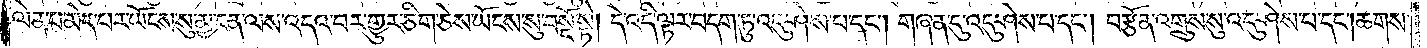ལེན་པ་མེད་པར་ཡོངས་སུ་མྱ་ངན་ལས་འདའ་བར་གྱུར་ཅིག་ཅེས་ཡོངས་སུ་བསྔོ་སྟེ། དེ་འདི་ལྟར་བདག་ཏུ་འདུ་ཤེས་པ་དང༌། གཞན་དུ་འདུ་ཤེས་པ་དང༌། བརྩོན་འགྲུས་སུ་འདུ་ཤེས་པ་དང༌། ཆགས་
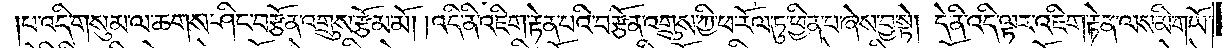པ་འདི་གསུམ་ལ་ཆགས་ཤིང་བརྩོན་འགྲུས་རྩོམ་མོ། །འདི་ནི་འཇིག་རྟེན་པའི་བརྩོན་འགྲུས་ཀྱི་ཕ་རོལ་ཏུ་ཕྱིན་པ་ཞེས་བྱ་སྟེ། དེ་ནི་འདི་ལྟར་འཇིག་རྟེན་ལས་མི་གཡོ་
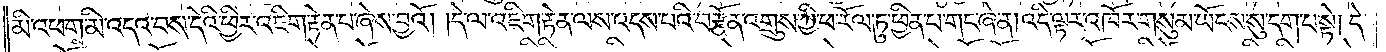མི་འཕག་མི་འདའ་བས་དེའི་ཕྱིར་འཇིག་རྟེན་པ་ཞེས་བྱའོ། །དེ་ལ་འཇིག་རྟེན་ལས་འདས་པའི་བརྩོན་འགྲུས་ཀྱི་ཕ་རོལ་ཏུ་ཕྱིན་པ་གང་ཞེ་ན། འདི་ལྟར་འཁོར་གསུམ་ཡོངས་སུ་དག་པ་སྟེ། དེ་
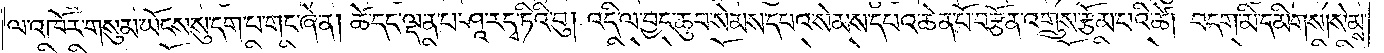ལ་འཁོར་གསུམ་ཡོངས་སུ་དག་པ་གང་ཞེ་ན། ཚེ་དང་ལྡན་པ་ཤཱ་ར་དྭ་ཏིའི་བུ། འདི་ལ་བྱང་ཆུབ་སེམས་དཔའ་སེམས་དཔའ་ཆེན་པོ་བརྩོན་འགྲུས་རྩོམ་པའི་ཚེ། བདག་མི་དམིགས། སེམས་
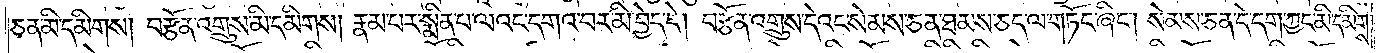ཅན་མི་དམིགས། བརྩོན་འགྲུས་མི་དམིགས། རྣམ་པར་སྨིན་པ་ལའང་དགའ་བར་མི་བྱེད་དེ། བརྩོན་འགྲུས་དེའང་སེམས་ཅན་ཐམས་ཅད་ལ་གཏོང་ཞིང༌། སེམས་ཅན་དེ་དག་ཀྱང་མི་དམིགས་
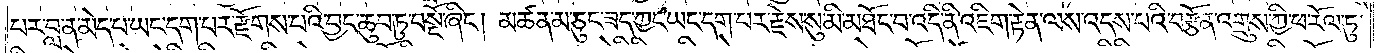པར་བླ་ན་མེད་པ་ཡང་དག་པར་རྫོགས་པའི་བྱང་ཆུབ་ཏུ་བསྔོ་ཞིང༌། མཚན་མ་ཅུང་ཟད་ཀྱང་ཡང་དག་པར་རྗེས་སུ་མི་མཐོང་བ་འདི་ནི་འཇིག་རྟེན་ལས་འདས་པའི་བརྩོན་འགྲུས་ཀྱི་ཕ་རོལ་ཏུ་
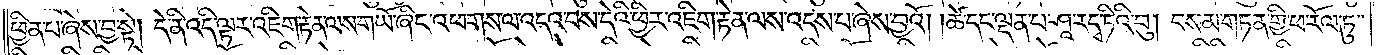ཕྱིན་པ་ཞེས་བྱ་སྟེ། དེ་ནི་འདི་ལྟར་འཇིག་རྟེན་ལས་གཡོ་ཞིང་འཕགས་ལ་འདའ་བས་དེའི་ཕྱིར་འཇིག་རྟེན་ལས་འདས་པ་ཞེས་བྱའོ། །ཚེ་དང་ལྡན་པ་ཤཱ་ར་དྭ་ཏིའི་བུ། བསམ་གཏན་གྱི་ཕ་རོལ་ཏུ་
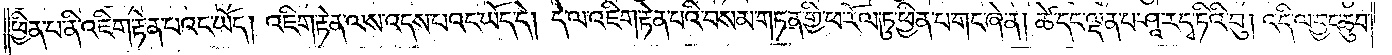ཕྱིན་པ་ནི་འཇིག་རྟེན་པའང་ཡོད། འཇིག་རྟེན་ལས་འདས་པའང་ཡོད་དེ། དེ་ལ་འཇིག་རྟེན་པའི་བསམ་གཏན་གྱི་ཕ་རོལ་ཏུ་ཕྱིན་པ་གང་ཞེ་ན། ཚེ་དང་ལྡན་པ་ཤཱ་ར་དྭ་ཏིའི་བུ། འདི་ལ་བྱང་ཆུབ་
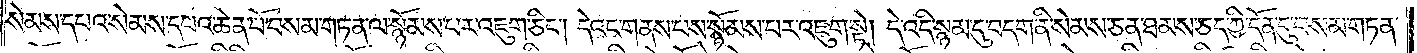སེམས་དཔའ་སེམས་དཔའ་ཆེན་པོ་བསམ་གཏན་ལ་སྙོམས་པར་འཇུག་ཅིང༌། དེའང་གནས་པས་སྙོམས་པར་འཇུག་སྟེ། དེ་འདི་སྙམ་དུ་བདག་ནི་སེམས་ཅན་ཐམས་ཅད་ཀྱི་དོན་དུ་བསམ་གཏན་
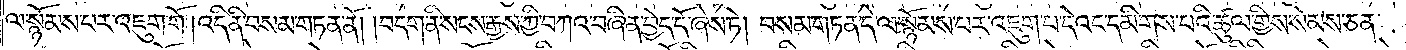ལ་སྙོམས་པར་འཇུག་གོ །འདི་ནི་བསམ་གཏན་ནོ། །བདག་ནི་སངས་རྒྱས་ཀྱི་བཀའ་བཞིན་བྱེད་དོ་ཞེས་ཏེ། བསམ་གཏན་དེ་ལ་སྙོམས་པར་འཇུག་པ་དེའང་དམིགས་པའི་ཚུལ་གྱིས་སེམས་ཅན་
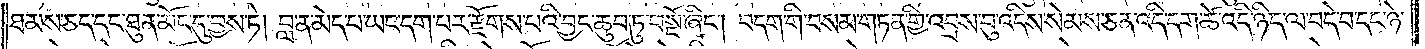ཐམས་ཅད་དང་ཐུན་མོང་དུ་བྱས་ཏེ། བླ་ན་མེད་པ་ཡང་དག་པར་རྫོགས་པའི་བྱང་ཆུབ་ཏུ་བསྔོ་ཞིང༌། བདག་གི་བསམ་གཏན་གྱི་འབྲས་བུ་འདིས་སེམས་ཅན་འདི་དག་ཚེ་འདི་ཉིད་ལ་བདེ་བ་དང་ཉེ་
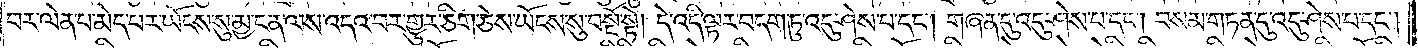བར་ལེན་པ་མེད་པར་ཡོངས་སུ་མྱ་ངན་ལས་འདའ་བར་གྱུར་ཅིག་ཅེས་ཡོངས་སུ་བསྔོ་སྟེ། དེ་འདི་ལྟར་བདག་ཏུ་འདུ་ཤེས་པ་དང༌། གཞན་དུ་འདུ་ཤེས་པ་དང༌། བསམ་གཏན་དུ་འདུ་ཤེས་པ་དང༌།
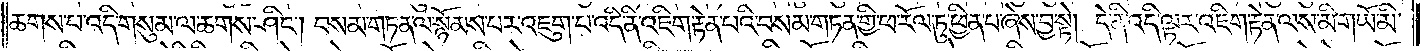ཆགས་པ་འདི་གསུམ་ལ་ཆགས་ཤིང༌། བསམ་གཏན་ལ་སྙོམས་པར་འཇུག་པ་འདི་ནི་འཇིག་རྟེན་པའི་བསམ་གཏན་གྱི་ཕ་རོལ་ཏུ་ཕྱིན་པ་ཞེས་བྱ་སྟེ། དེ་ནི་འདི་ལྟར་འཇིག་རྟེན་ལས་མི་གཡོ་མི་
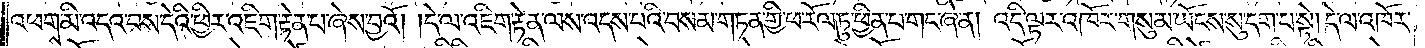འཕགས་མི་འདའ་བས་དེའི་ཕྱིར་འཇིག་རྟེན་པ་ཞེས་བྱའོ། །དེ་ལ་འཇིག་རྟེན་ལས་འདས་པའི་བསམ་གཏན་གྱི་ཕ་རོལ་ཏུ་ཕྱིན་པ་གང་ཞེ་ན། འདི་ལྟར་འཁོར་གསུམ་ཡོངས་སུ་དག་པ་སྟེ། དེ་ལ་འཁོར་
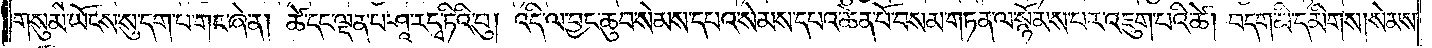གསུམ་ཡོངས་སུ་དག་པ་གང་ཞེ་ན། ཚེ་དང་ལྡན་པ་ཤཱ་ར་དྭ་ཏིའི་བུ། འདི་ལ་བྱང་ཆུབ་སེམས་དཔའ་སེམས་དཔའ་ཆེན་པོ་བསམ་གཏན་ལ་སྙོམས་པར་འཇུག་པའི་ཚེ། བདག་མི་དམིགས། སེམས་
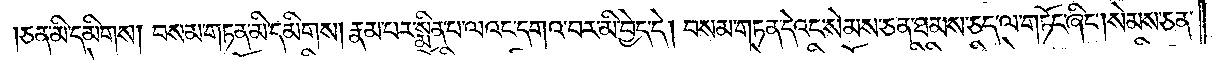ཅན་མི་དམིགས། བསམ་གཏན་མི་དམིགས། རྣམ་པར་སྨིན་པ་ལའང་དགའ་བར་མི་བྱེད་དེ། བསམ་གཏན་དེའང་སེམས་ཅན་ཐམས་ཅད་ལ་གཏོང་ཞིང༌། སེམས་ཅན་
